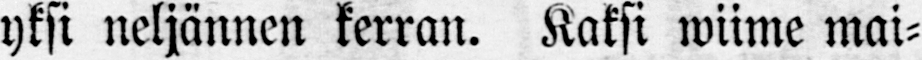yksi neljännen kerran. Kaksi wiime mai-
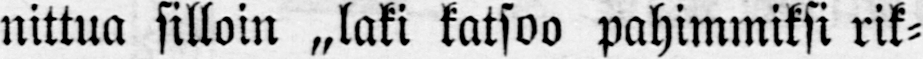nittua silloin „laki katsoo pahimmiksi rik-
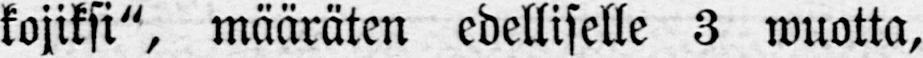kojiksi", määräten edelliselle 3 wuotta,
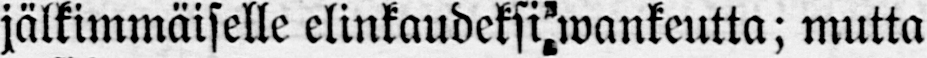jälkimmäisille elinkaudeksi wankeutta; mutta
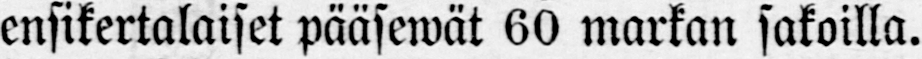ensikertalaiset pääsewät 60 markan sakoilla.
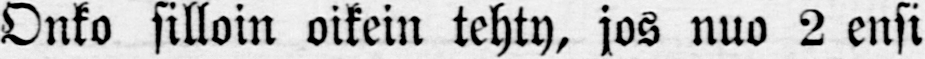Onko silloin oikein tehty, jos nuo 2 ensi
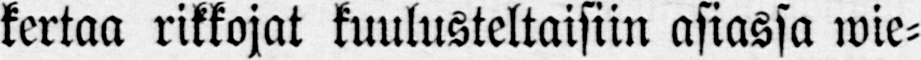kertaa rikkojat kuulusteltaisiin asiassa wie-
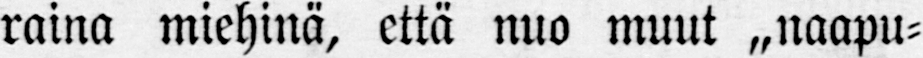raina miehinä, että nuo muut „naapu-
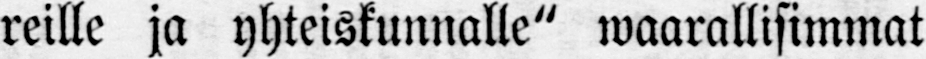reille ja yhteiskunnalle" waarallisimmat
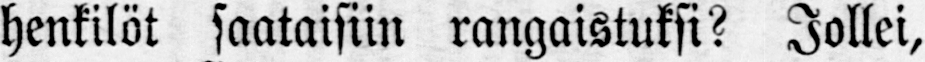henkilöt saataisiin rangaistuksi? Jollei,
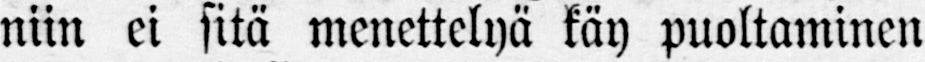niin ei sitä menettelyä käy puoltaminen
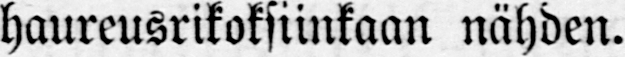haureusrikoksiinkaan nähden.
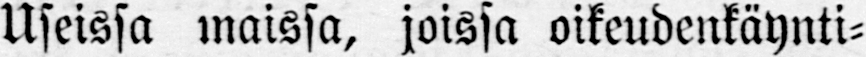Useissa maissa, joissa oikeudenkäynti-
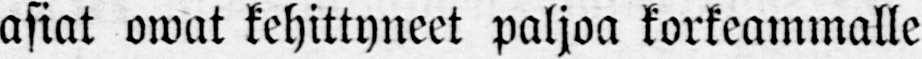asiat owat kehittyneet paljoa korkeammalle
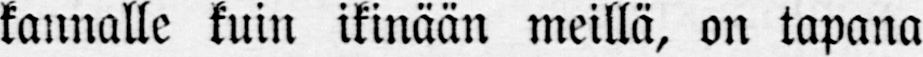kannalle kuin itinään meillä, on tapana
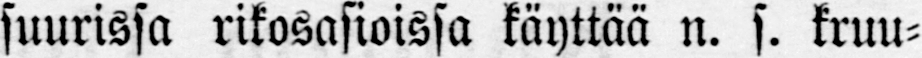suurissa rikosasioissa käyttää n. s. kruu-
